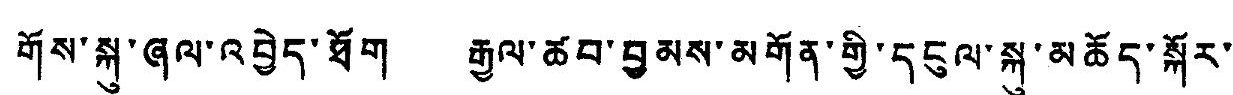གོས་སྐུ་ཞལ་འབྱེད་ཐོག རྒྱལ་ཚབ་བྱམས་མགོན་གྱི་དངུལ་སྐུ་མཆོད་སྐོར་
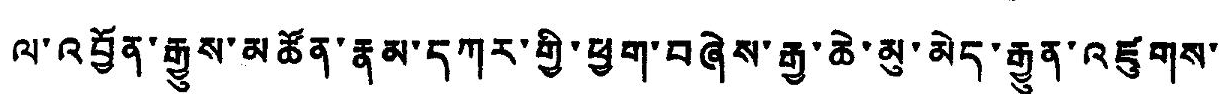ལ་འབྱོན་རྒྱུས་མཚོན་རྣམ་དཀར་གྱི་ཕྱག་བཞེས་རྒྱ་ཆེ་མུ་མེད་རྒྱུན་འཛུགས་
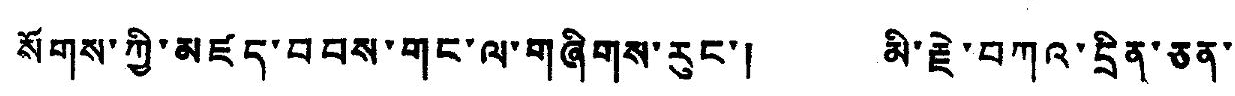སོགས་ཀྱི་མཛད་བབས་གང་ལ་གཞིགས་རུང་། མི་རྗེ་བཀའ་དྲིན་ཅན་
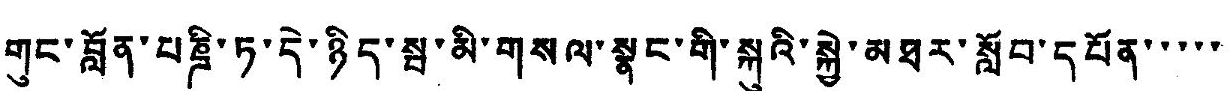གུང་བློན་པཎྜི་ཏ་དེ་ཉིད་སྦ་མི་གསལ་སྣང་གི་སྐུའི་སྐྱེ་མཐར་སློབ་དཔོན་་་་་
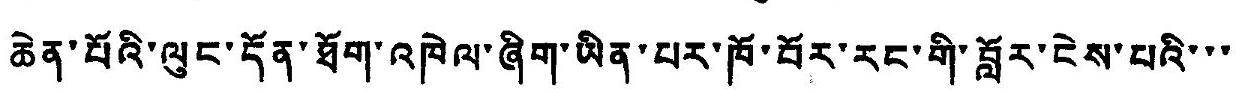ཆེན་པོའི་ལུང་དོན་ཐོག་འཁེལ་ཞིག་ཡིན་པར་ཁོ་བོར་རང་གི་བློར་ངེས་པའི་་་
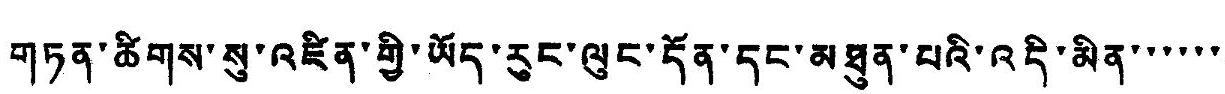གཏན་ཚིགས་སུ་འཛིན་གྱི་ཡོད་རུང་ལུང་དོན་དང་མཐུན་པའི་འདི་མིན་་་་་་
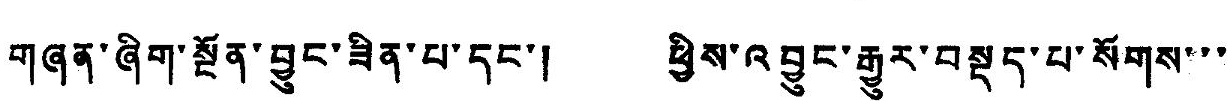གཞན་ཞིག་སྔོན་བྱུང་ཟིན་པ་དང་། ཕྱིས་འབྱུང་རྒྱུར་བསྡད་པ་སོགས་་་
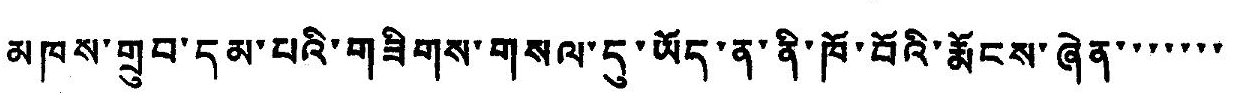མཁས་གྲུབ་དམ་པའི་གཟིགས་གསལ་དུ་ཡོད་ན་ནི་ཁོ་བོའི་རྨོངས་ཞེན་་་་་་་
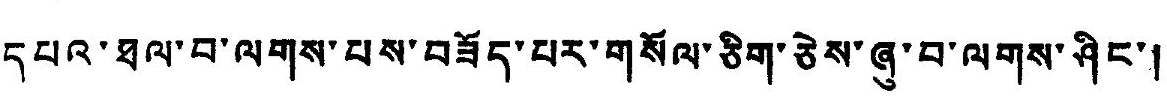དཔའ་ཐལ་བ་ལགས་པས་བཟོད་པར་གསོལ་ཅིག་ཅེས་ཞུ་བ་ལགས་ཤིང་།
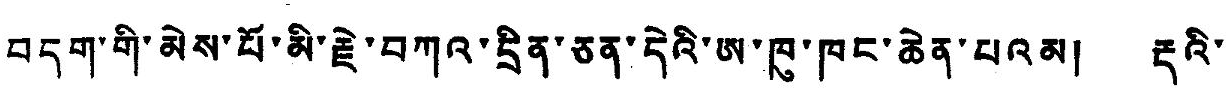བདག་གི་མེས་པོ་མི་རྗེ་བཀའ་དྲིན་ཅན་དེའི་ཨ་ཁུ་ཁང་ཆེན་པའམ། རྡའི་
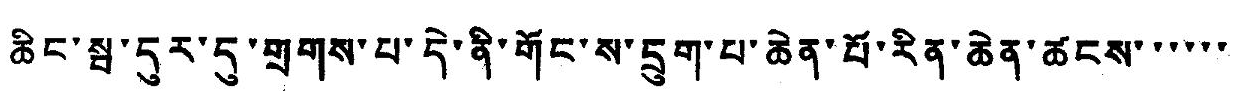ཆིང་སྦ་དུར་དུ་གྲགས་པ་དེ་ནི་གོང་ས་དྲུག་པ་ཆེན་པོ་རིན་ཆེན་ཚངས་་་་་་
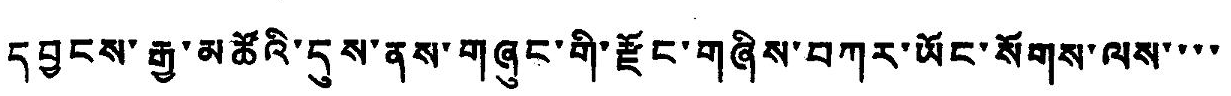དབྱངས་རྒྱ་མཚོའི་དུས་ནས་གཞུང་གི་རྫོང་གཞིས་བཀར་ཡོང་སོགས་ལས་་་་
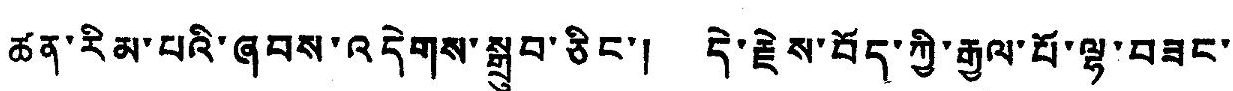ཚན་རིམ་པའི་ཞབས་འདེགས་སྒྲུབ་ཅིང་། དེ་རྗེས་བོད་ཀྱི་རྒྱལ་པོ་ལྷ་བཟང་
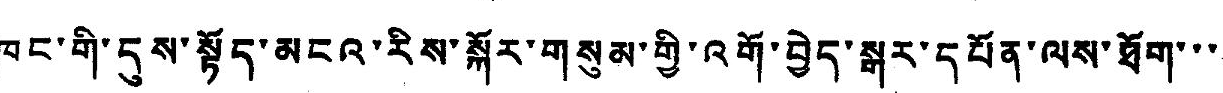ཁང་གི་དུས་སྟོད་མངའ་རིས་སྐོར་གསུམ་གྱི་འགོ་བྱེད་སྒར་དཔོན་ལས་ཐོག་་་
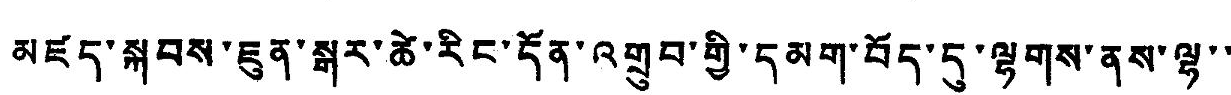མཛད་སྐབས་ཇུན་སྒར་ཚེ་རིང་དོན་འགྲུབ་གྱི་དམག་བོད་དུ་ལྷགས་ནས་ལྷ་་
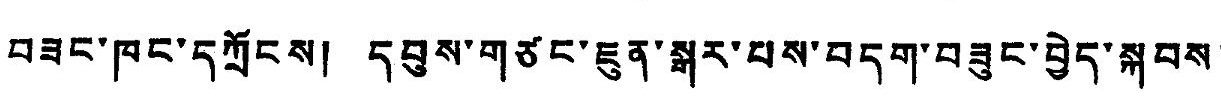བཟང་ཁང་དཀྲོངས་།་དབུས་གཙང་ཇུན་སྒར་པས་བདག་བཟུང་བྱེད་སྐབས་
